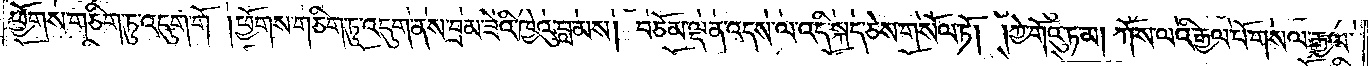ཕྱོགས་གཅིག་ཏུ་འདུག་གོ །ཕྱོགས་གཅིག་ཏུ་འདུག་ནས་བྲམ་ཟེའི་ཁྱེའུ་བླ་མས། བཅོམ་ལྡན་འདས་ལ་འདི་སྐད་ཅེས་གསོལ་ཏོ། །ཀྱེ་གོའུ་ཏ་མ། ཀོ་ས་ལའི་རྒྱལ་པོ་གསལ་རྒྱལ་
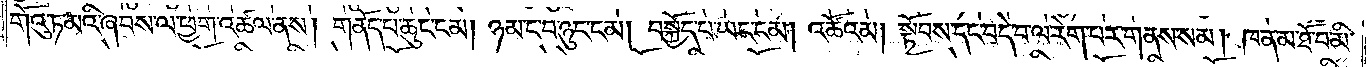གོའུ་ཏ་མའི་ཞབས་ལ་ཕྱག་འཚལ་ནས། གནོད་པ་ཆུང་ངམ། ཉམ་ང་བ་ཉུང་ངམ། བསྐྱོད་པ་ཡང་ངམ། འཚོའམ། སྟོབས་དང་བདེ་བ་ལ་རེག་པར་གནས་སམ། ཁ་ན་མ་ཐོ་བ་མི་
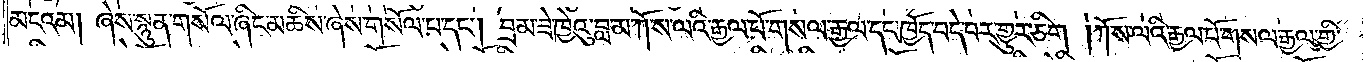མངའམ། ཞེས་སྙུན་གསོལ་ཞིང་མཆིས་ཞེས་གསོལ་པ་དང༌། བྲམ་ཟེ་ཁྱེའུ་བླ་མ་ཀོ་ས་ལའི་རྒྱལ་པོ་གསལ་རྒྱལ་དང་ཁྱོད་བདེ་བར་གྱུར་ཅིག །ཀོ་ས་ལའི་རྒྱལ་པོ་གསལ་རྒྱལ་གྱི་
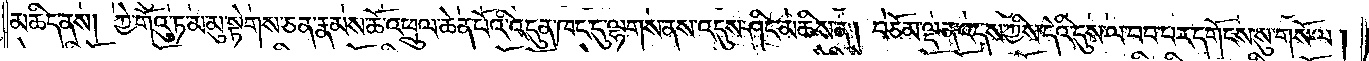མཆིད་ནས། ཀྱེ་གོའུ་ཏ་མ་མུ་སྟེགས་ཅན་རྣམས་ཆོ་འཕྲུལ་ཆེན་པོའི་འདུན་ཁང་དུ་ལྷགས་ནས་འདུས་ཤིང་མཆིས་ན། བཅོམ་ལྡན་འདས་ཀྱིས་དེའི་དུས་ལ་བབ་པར་དགོངས་སུ་གསོལ།
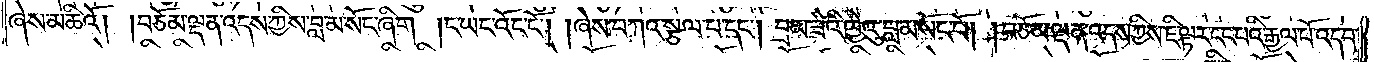ཞེས་མཆིའོ། །བཅོམ་ལྡན་འདས་ཀྱིས་བླ་མ་སོང་ཞིག །ང་ཡང་འོང་ངོ༌། །ཞེས་བཀའ་སྩལ་པ་དང༌། བྲམ་ཟེའི་ཁྱེའུ་བླ་མ་སོང་ངོ༌། །བཅོམ་ལྡན་འདས་ཀྱིས་ཇི་ལྟར་ངང་པའི་རྒྱལ་པོ་འདབ་
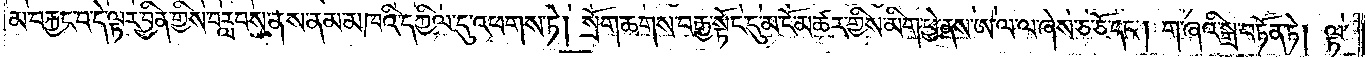མ་བརྐྱང་བ་དེ་ལྟར་བྱིན་གྱིས་བརླབས་ནས་ནམ་མཁའི་དཀྱིལ་དུ་འཕགས་ཏེ། སྲོག་ཆགས་བརྒྱ་སྟོང་དུ་མ་ངོ་མཚར་གྱིས་མིག་ཕྱེ་ནས་ཨ་ལ་ལ་ཞེས་ཅ་ཅོ་དང༌། ག་ཞའི་སྒྲ་བཏོན་ཏེ། ལྟ་
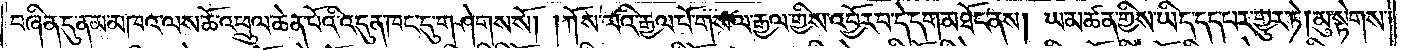བཞིན་དུ་ནམ་མཁའ་ལས་ཆོ་འཕྲུལ་ཆེན་པོའི་འདུན་ཁང་དུ་གཤེགས་སོ། །ཀོ་ས་ལའི་རྒྱལ་པོ་གསལ་རྒྱལ་གྱིས་འབྱོར་པ་དེ་དག་མཐོང་ནས། ཡ་མཚན་གྱིས་ཡིད་དད་པར་གྱུར་ཏེ། མུ་སྟེགས་
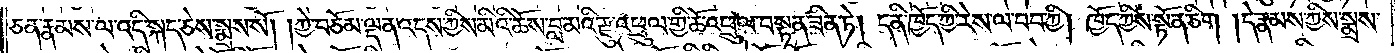ཅན་རྣམས་ལ་འདི་སྐད་ཅེས་སྨྲས་སོ། །ཀྱེ་བཅོམ་ལྡན་འདས་ཀྱིས་མིའི་ཆོས་བླ་མའི་རྫུ་འཕྲུལ་གྱི་ཆོ་འཕྲུལ་བསྟན་ཟིན་ཏེ། ད་ནི་ཁྱོད་ཀྱི་རེས་ལ་བབ་ཀྱི། ཁྱོད་ཀྱིས་སྟོན་ཅིག །དེ་རྣམས་ཀྱིས་སྨྲས་
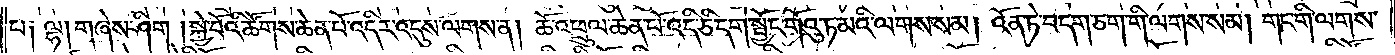པ༑ ལྷ། གཞེས་ཤིག །སྐྱེ་བོའི་ཚོགས་ཆེན་པོ་འདིར་འདུས་ལགས་ན། ཆོ་འཕྲུལ་ཆེན་པོ་འདི་ཅི་དགེ་སྦྱོང་གོའུ་ཏ་མའི་ལགས་སམ། འོན་ཏེ་བདག་ཅག་གི་ལགས་སམ། གང་གི་ལགས་
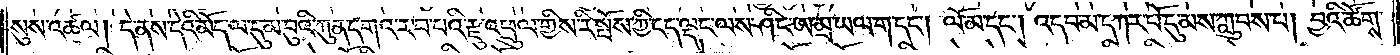སུས་འཚལ། དེ་ནས་དེའི་མོད་ལ་དུམ་བུའི་ཀུན་དགའ་ར་བ་པའི་རྫུ་འཕྲུལ་གྱིས་རི་སྤོས་ཀྱི་ངད་ལྡང་ལས་ཤིང་ཨ་མྲ་ཡལ་ག་དང༌། ལོ་མ་དང༌། འདབ་མ་དཀར་པོ་དུ་མས་ཀླུབས་པ། བྱའི་ཚོགས་
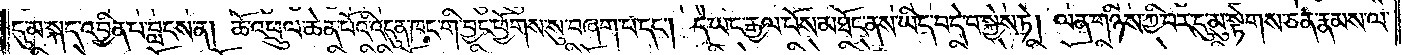དུ་མ་སྐད་འབྱིན་པ་བླངས་ན། ཆོ་འཕྲུལ་ཆེན་པོའི་འདུན་ཁང་གི་བྱང་ཕྱོགས་སུ་བཞག་པ་དང༌། དེ་ཡང་རྒྱལ་པོས་མཐོང་ནས་ཡིད་བདེ་བ་སྐྱེས་ཏེ། ལན་གཉིས་ཀྱི་བར་དུ་མུ་སྟེགས་ཅན་རྣམས་ལ་
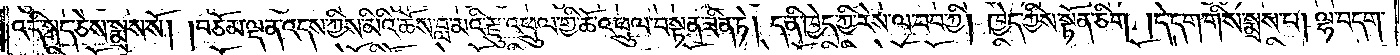འདི་སྐད་ཅེས་སྨྲས་སོ། །བཅོམ་ལྡན་འདས་ཀྱིས་མིའི་ཆོས་བླ་མའི་རྫུ་འཕྲུལ་གྱི་ཆོ་འཕྲུལ་བསྟན་ཟིན་ཏེ། ད་ནི་ཁྱེད་ཀྱི་རེས་ལ་བབ་ཀྱི། ཁྱེད་ཀྱིས་སྟོན་ཅིག །དེ་དག་གིས་སྨྲས་པ། ལྷ་བདག་
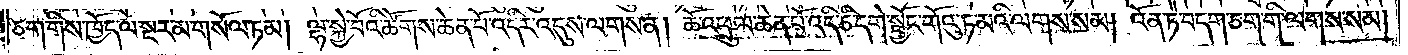ཅག་གིས་ཁྱོད་ལ་སྔར་མ་གསོལ་ཏམ། ལྷ་སྐྱེ་བོའི་ཚོགས་ཆེན་པོ་འདིར་འདུས་ལགས་ན། ཆོ་འཕྲུལ་ཆེན་པོ་འདི་ཅི་དགེ་སྦྱོང་གོའུ་ཏ་མའི་ལགས་སམ། འོན་ཏེ་བདག་ཅག་གི་ལགས་སམ།
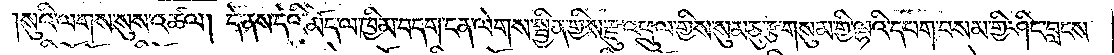སུའི་ལགས་སུས་འཚལ། དེ་ནས་དེའི་མོད་ལ་ཁྱིམ་བདག་ངན་ལེགས་སྦྱིན་གྱིས་རྫུ་འཕྲུལ་གྱིས་སུམ་ཅུ་རྩ་གསུམ་གྱི་ལྷའི་དཔག་བསམ་གྱི་ཤིང་བླངས་
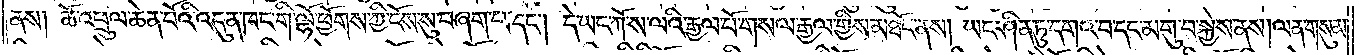ནས། ཆོ་འཕྲུལ་ཆེན་པོའི་འདུན་ཁང་གི་ལྷོ་ཕྱོགས་ཀྱི་ངོས་སུ་བཞག་པ་དང༌། དེ་ཡང་ཀོ་ས་ལའི་རྒྱལ་པོ་གསལ་རྒྱལ་གྱིས་མཐོང་ནས། ཡང་ཤིན་ཏུ་དགའ་བ་དང་མགུ་བ་སྐྱེས་ནས། ལན་གསུམ་
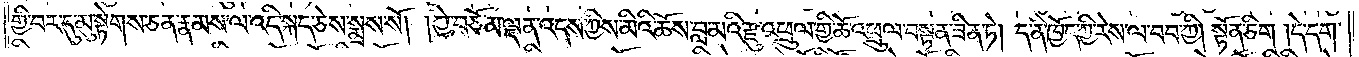གྱི་བར་དུ་མུ་སྟེགས་ཅན་རྣམས་ལ་འདི་སྐད་ཅེས་སྨྲས་སོ། །ཀྱེ་བཅོམ་ལྡན་འདས་ཀྱིས་མིའི་ཆོས་བླ་མའི་རྫུ་འཕྲུལ་གྱི་ཆོ་འཕྲུལ་བསྟན་ཟིན་ཏེ། ད་ནི་ཁྱོད་ཀྱི་རེས་ལ་བབ་ཀྱི། སྟོན་ཅིག །དེ་དག་
